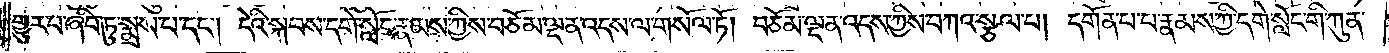གྱུར་པ་ཞིག་ཏུ་སྨྲས་པ་དང༌། དེའི་སྐབས་དགེ་སློང་རྣམས་ཀྱིས་བཅོམ་ལྡན་འདས་ལ་གསོལ་ཏོ། བཅོམ་ལྡན་འདས་ཀྱིས་བཀའ་སྩལ་པ། དགོན་པ་པ་རྣམས་ཀྱི་དགེ་སློང་གི་ཀུན་
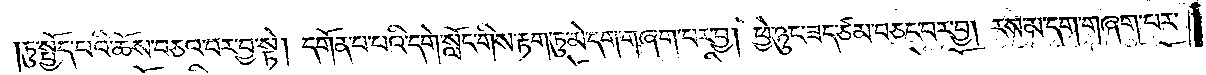ཏུ་སྤྱོད་པའི་ཆོས་བཅའ་བར་བྱ་སྟེ། དགོན་པ་པའི་དགེ་སློང་གིས་རྟག་ཏུ་མེ་དག་གཞག་པར་བྱ། ཕྱེ་ཉུང་ཟད་ཙམ་བཅང་བར་བྱ། རས་མ་དག་གཞག་པར་
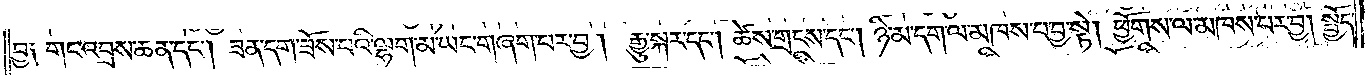བྱ༑ གང་འབྲས་ཆན་དང༌། ཟན་དག་ཟོས་པའི་ལྷག་མ་ཡང་གཞག་པར་བྱ། རྒྱུ་སྐར་དང༌། ཚེས་གྲངས་དང༌། ཉི་མ་དག་ལ་མཁས་པ་བྱ་སྟེ། ཕྱོགས་ལ་མཁས་པར་བྱ། སྤྱོད་
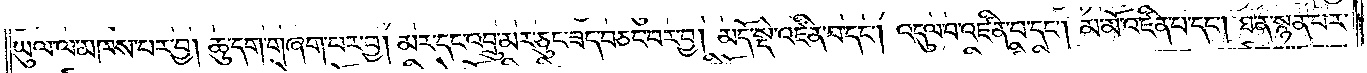ཡུལ་ལ་མཁས་པར་བྱ། ཆུ་དག་གཞག་པར་བྱ། མར་དང་འབྲུ་མར་ཅུང་ཟད་བཅང་བར་བྱ། མདོ་སྡེ་འཛིན་པ་དང༌། འདུལ་བ་འཛིན་པ་དང༌། མ་མོ་འཛིན་པ་དང༌། ཐ་ན་སྙན་པར་
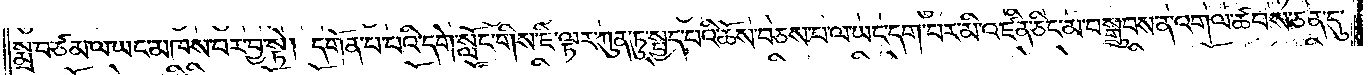སྨྲ་བ་ཙམ་ལ་ཡང་མཁས་པར་བྱ་སྟེ། དགོན་པ་པའི་དགེ་སློང་གིས་ཇི་ལྟར་ཀུན་ཏུ་སྤྱད་པའི་ཆོས་བཅས་པ་ལ་ཡང་དག་པར་མི་འཛིན་ཅིང་མ་བསྒྲུབས་ན་འགལ་ཚབས་ཅན་དུ་
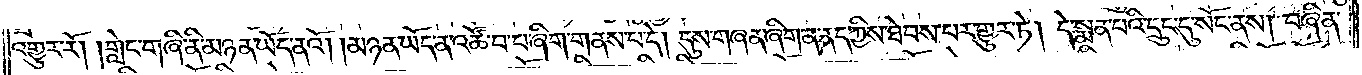འགྱུར་རོ། །གླེང་གཞི་ནི་མཉན་ཡོད་ནའོ། །མཉན་ཡོད་ན་འཚོ་བ་པ་ཞིག་གནས་པ་དེ། དུས་གཞན་ཞིག་ན་ནད་ཀྱིས་ཐེབས་པར་གྱུར་ཏེ། དེ་སྨན་པའི་དྲུང་དུ་སོང་ནས། བཞིན་
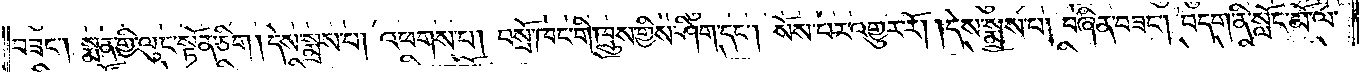བཟང༌། སྨན་གྱི་ལུང་སྟོན་ཅིག །དེས་སྨྲས་པ། འཕགས་པ། བསྲོ་ཁང་གི་ཁྲུས་གྱིས་ཤིག་དང༌། སོས་པར་འགྱུར་རོ། །དེས་སྨྲས་པ། བཞིན་བཟང༌། བདག་ནི་སློང་མོ་ལ་
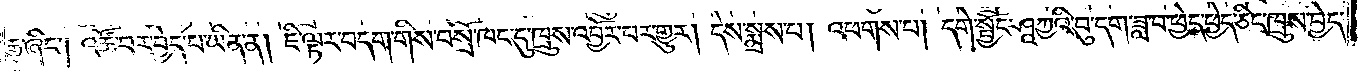རྒྱུ་ཞིང༌། འཚོ་བར་བྱེད་པ་ཡིན་ན། ཇི་ལྟར་བདག་གིས་བསྲོ་ཁང་དུ་ཁྲུས་འབྱོར་པར་གྱུར། དེས་སྨྲས་པ། འཕགས་པ། དགེ་སྦྱོང་ཤཱཀྱའི་བུ་དག་ཟླ་བ་ཕྱེད་ཕྱེད་ཅིང་ཁྲུས་བྱེད་
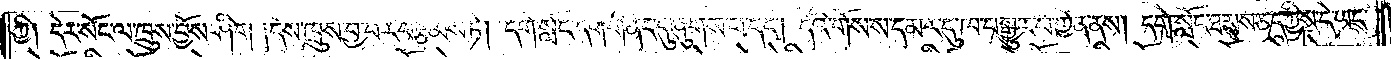ཀྱི༑ དེར་སོང་ལ་ཁྲུས་བྱོས་ཤིག །དེས་ཁྲུས་བྱ་བར་བརྩམས་ཏེ། དགེ་སློང་དག་གི་ནང་དུ་ཞུགས་པ་དང༌། དེའི་གོས་ས་དམར་དུ་ཁ་བསྒྱུར་བ་གྱོན་ནས། དགེ་སློང་ཐམས་ཅད་ཀྱིས་དེ་ཡང་
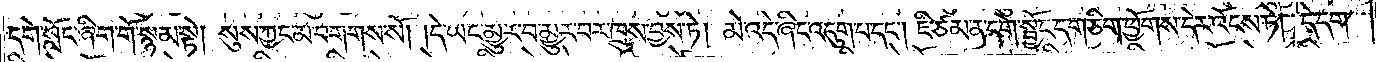དགེ་སློང་ཞིག་གོ་སྙམ་སྟེ། སུས་ཀྱང་མ་བགགས་སོ། །དེ་ཡང་མྱུར་བ་མྱུར་བར་ཁྲུས་བྱས་ཏེ། མེ་འདེ་ཞིང་འདུག་པ་དང༌། ཇི་ཙམ་ན་དགེ་སྦྱོང་དག་ཅིག་ཕྱོགས་དེར་འོངས་ཏེ། དེ་དག་
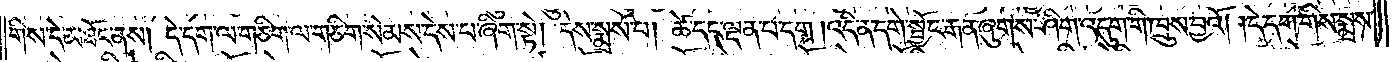གིས་དེ་མཐོང་ནས། དེ་དག་ལ་གཅིག་ལ་གཅིག་སེམས་དེས་པ་ཞིག་སྟེ། དེས་སྨྲས་པ། ཚེ་དང་ལྡན་པ་དག །འདི་ན་དགེ་སྦྱོང་རྒན་ཞུགས་ཤིག་འདུག་གི་ཁྲུས་བྱའོ། །དེ་དག་གིས་སྨྲས་
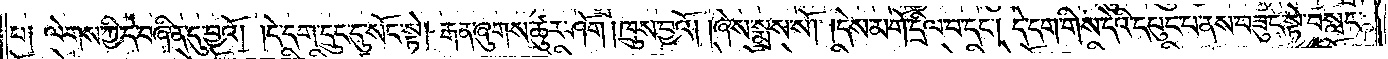པ༑ ལེགས་ཀྱི་དེ་བཞིན་དུ་བྱའོ། །དེ་དག་དྲུང་དུ་སོང་སྟེ། རྒན་ཞུགས་ཚུར་ཤོག །ཁྲུས་བྱའོ། །ཞེས་སྨྲས་སོ། །དེས་མགོ་དྲིལ་བ་དང༌། དེ་དག་གིས་དེའི་དཔུང་པ་ནས་བཟུང་སྟེ་བསླང་
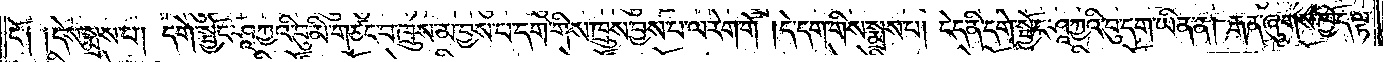ངོ༑ ༑དེས་སྨྲས་པ། དགེ་སྦྱོང་ཤཱཀྱའི་བུ་མི་གཙང་བ་ཁྲུས་མ་བྱས་པ་དག་གིས་ཁྲུས་བྱས་པ་ལ་རེག་གོ །དེ་དག་གིས་སྨྲས་པ། ངེད་ནི་དགེ་སྦྱོང་ཤཱཀྱའི་བུ་དག་ཡིན་ན། རྒན་ཞུགས་ཁྱོད་ལྟ་
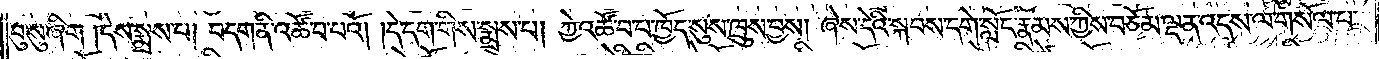བུ་སུ་ཞིག །དེས་སྨྲས་པ། བདག་ནི་འཚོ་བ་པའོ། །དེ་དག་གིས་སྨྲས་པ། ཀྱེ་འཚོ་བ་པོ་ཁྱོད་སུས་ཁྲུས་བྱས། ཞེས་དེའི་སྐབས་དགེ་སློང་རྣམས་ཀྱིས་བཅོམ་ལྡན་འདས་ལ་གསོལ་པ་
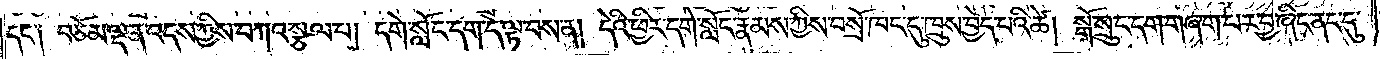དང་༑ བཅོམ་ལྡན་འདས་ཀྱིས་བཀའ་སྩལ་པ། དགེ་སློང་དག་དེ་ལྟ་བས་ན། དེའི་ཕྱིར་དགེ་སློང་རྣམས་ཀྱིས་བསྲོ་ཁང་དུ་ཁྲུས་བྱེད་པའི་ཚེ། སྒོ་སྲུང་དག་གཞག་པར་བྱ་ཞིང་ནང་དུ་
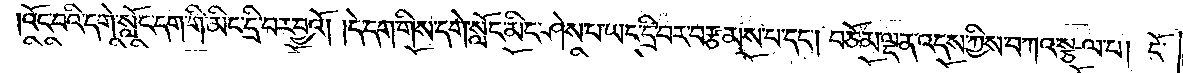འོང་བའི་དགེ་སློང་དག་གི་མིང་དྲི་བར་བྱའོ། །དེ་དག་གིས་དགེ་སློང་མིང་ཤེས་པ་ཡང་དྲི་བར་བརྩམས་པ་དང༌། བཅོམ་ལྡན་འདས་ཀྱིས་བཀའ་སྩལ་པ། ངོ་
